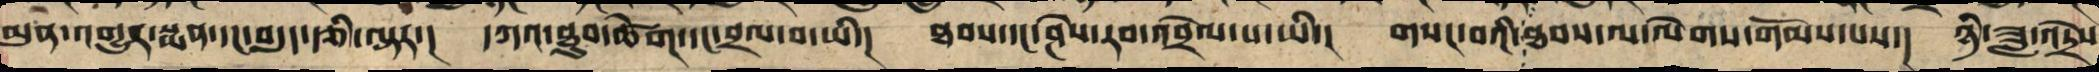མུན་འགྱུར་སྨན་དང་བདུད་རྩི་ལྟར་། དཀའ་ཐུབ་ཚེག་དང་བྲལ་བ་ཡི་། ཐབས་དང་ཤེས་རབ་འབྲེལ་པ་ཡི་། གསང་བའི་ཐབས་ལ་ལེགས་གོམས་པས་། ཉི་ཟླ་འདྲེས
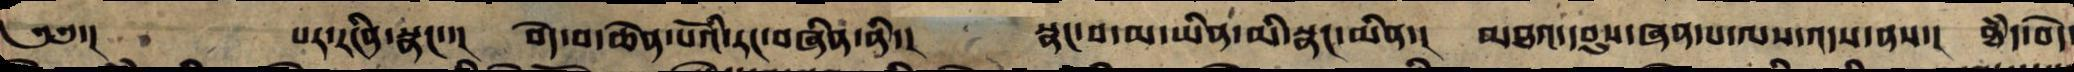༄༅་།        པར་རངིན་སྣང་་། བདེ་བ་ཆེན་པོའི་རང་བཞིན་ནི་། སྣང་བ་མ་ཡིན་མི་སྣང་མིན་། མཐའ་དབུས་ཞན་པ་ལས་འདས་ནས་། ཐཾད་བདེ
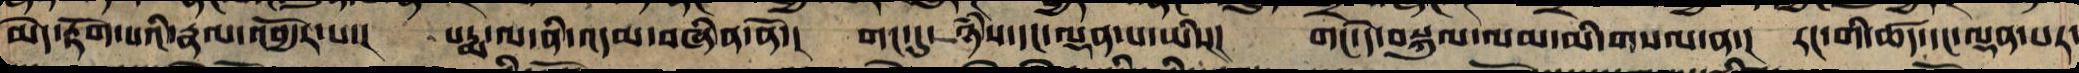མེད་རྟོག་པའི་རྣལ་འབྱོར་པ་། པདྨ་ལ་ནི་འདམ་བཞིན་ནོ་། གང་དུ་ཉཾས་དང་ལྡན་པ་ཡིས་། གང་དེ་བསྐུལ་ལམ་མི་གསལ་ན་། རང་གི་ཚད་དང་ལྡན་པར་
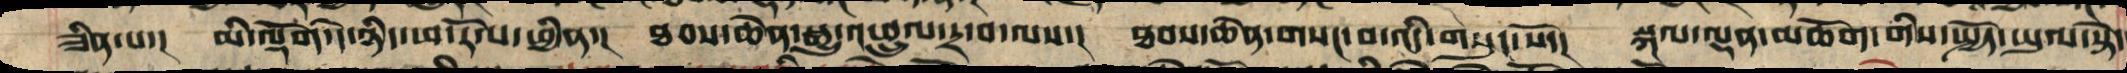ཟིན་པ་། མི་ལྡོག་དེ་ཉིད་ཕ་རོལ་ཕྱིན་། ཐབས་ཆེན་སྒྱུ་འཕྲུལ་དྲ་བ་ལས་། ཐབས་ཆེན་གསང་བ་འདི་གསུངས་སོ་། སྐལ་ལྡན་མཆོག་གི་སྤྱོད་ཡུལ་སྟེ་
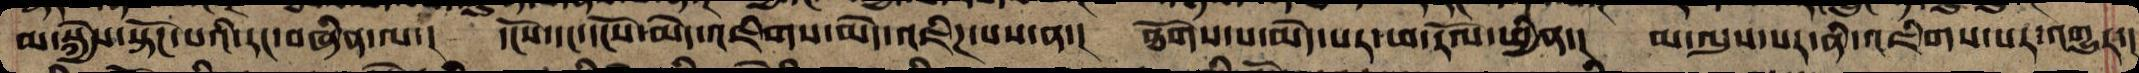མ་སྐྱེས་སྟོང་པའི་རང་བཞིན་ལ་། དངོས་དང་དངོས་མེད་འཇིགས་མེད་འཇིཌ་པས་ན་། ཐོགས་པ་མེད་པར་ཕ་རོལ་ཕྱིན་། མ་ལུས་པར་ནི་འཇིགས་པར་འགྱུར་།
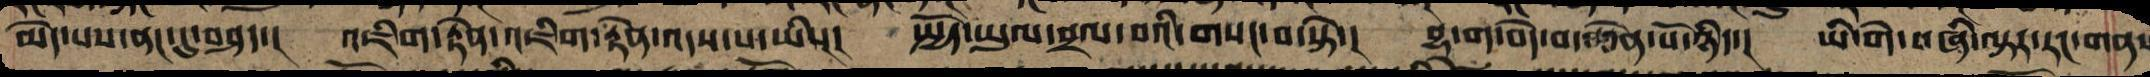མེད་པས་ནང་དུ་བཤད་། འཇིག་རྟེན་འཇིག་རྟེན་འདས་པ་ཡི་། སྤྱོད་ཡུལ་བྲལ་བའི་གསང་བ་སྟེ་། བྷ་ག་བདེ་བ་ཆེན་པོ་ཉིད་། ཡི་གེ་བཞི་ལྟར་རང་གནས
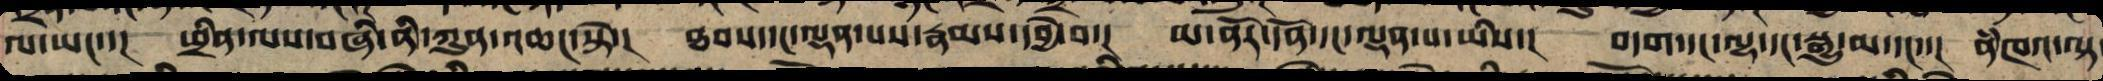ལ་ཡང་་། ཕྲིན་ལས་བཞི་ནི་ཀུན་འཆང་སྟེ་། ཐབས་དང་ལྡན་པས་རྣམ་དབྱེ་བ་། མ་ནོར་དོན་དང་ལྡན་པ་ཡིས་། བདག་དང་ལྷ་དང་སྒྱུ་མ་དང་་། ནཾཁའ་ལྟ
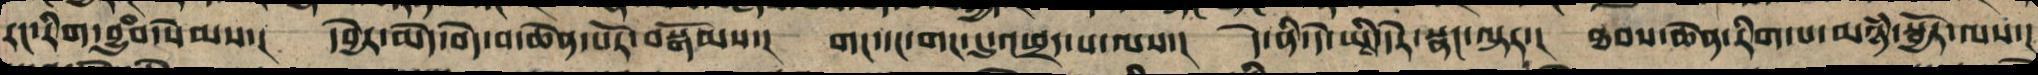རང་རིག་བྱུཾབ་སེམས་། དབྱེར་མེད་བདེ་བ་ཆེན་པོར་བསྒོམས་། གང་དང་གང་དུ་ཕྲད་པ་ལས་། དེ་ནི་དེ་ཡི་དེར་སྣང་ལྟར་། ཐབས་ཆེན་རིག་པ་མཉཾ་སྦྱོར་ལས་།
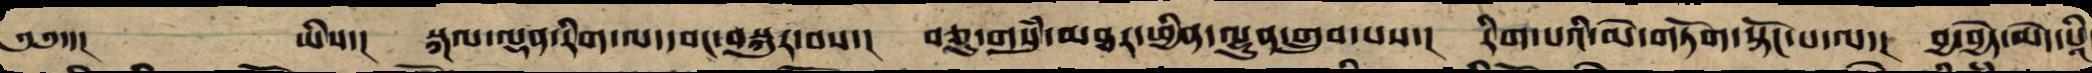༄༅་། ཡིས་། སྐལ་ལྡན་རིགས་པ་དབང་བསྐུར་བས་། བཅུ་གསུཾ་མཐར་ཕྱིན་ལྷུན་གྲུབ་པས་། རིག་པའི་མེ་གཏོག་སྟོང་པ་ལ་། བྱ་བྱེད་མེད་པའི
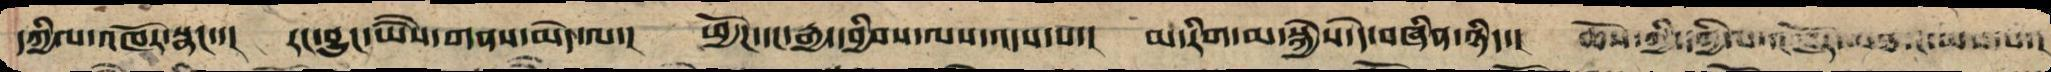དཀྱིལ་འཁོར་སྣང་་། རང་བྱུང་ཡཻས་གནས་མེད་ལ་། ཕྱོཌ་དང་རྒྱ་དབྱིབས་ལས་འདས་པ་། མ་རིག་མ་སྐྱེས་དེ་བཞིན་ཉིད་། ཆོས་ཀྱི་དཀྱིལ་འཁོར་མཐའ་ཡས་པ་།
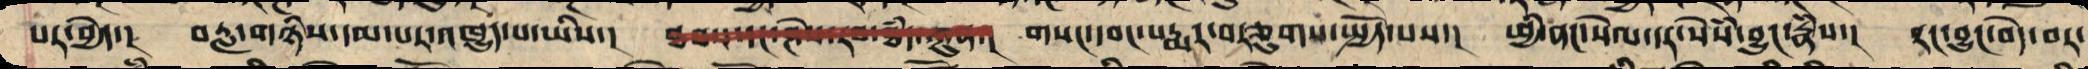པར་བྱེད་། བརླ་གཉིས་དམ་པར་འཁྱུད་པ་ཡིས་། ཐབས་དང་ཤེས་རབ་ཐཾད་ཀུན་། གསང་དབང་པདྨར་བརྩུགས་སྤྱོད་པས་། ཕྱི་ནང་སེལ་དང་སེཾས་བྱུང་རྣཾས་། རང་བྱུང་བདེ་བར་
